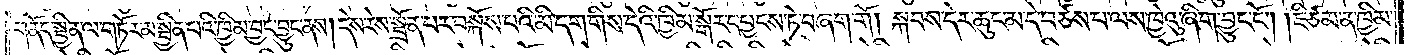གནོད་སྦྱིན་ལ་གཏོར་མ་སྦྱིན་པའི་ཁྱིམ་བྱང་བྱུང་ནས། དེས་རེས་སྦྲོན་པར་བསྐོས་པའི་མི་དག་གིས་དེའི་ཁྱིམ་སྒོར་དབྱངས་ཏེ་བཞག་གོ །སྐབས་དེར་ཆུང་མ་དེ་བཙས་པ་ལས་ཁྱེའུ་ཞིག་བྱུང་ངོ༌། །ཇི་ཙམ་ན་ཁྱིམ་
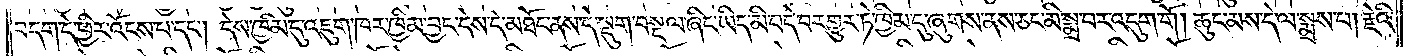བདག་དེ་ཕྱིར་འོངས་པ་དང༌། དེས་ཁྱིམ་དུ་འཇུག་ཁར་ཁྱིམ་བྱང་དེས་དེ་མཐོང་ནས་དེ་སྡུག་བསྔལ་ཞིང་ཡིད་མི་བདེ་བར་གྱུར་ཏེ་ཁྱིམ་དུ་ཞུགས་ནས་ཅང་མི་སྨྲ་བར་འདུག་གོ །ཆུང་མས་དེ་ལ་སྨྲས་པ། རྗེའི་
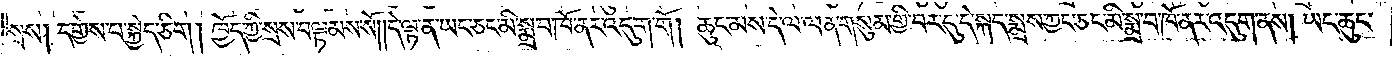སྲས། དགྱེས་པ་སྐྱེད་ཅིག །ཁྱོད་ཀྱི་སྲས་བལྟམས་སོ། །དེ་ལྟ་ན་ཡང་ཅང་མི་སྨྲ་བ་ཁོ་ནར་འདུག་གོ །ཆུང་མས་དེ་ལ་ལན་གསུམ་གྱི་བར་དུ་དེ་སྐད་སྨྲས་ཀྱང་ཅང་མི་སྨྲ་བ་ཁོ་ནར་འདུག་ནས། ཡང་ཆུང་
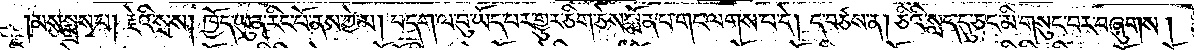།མས་སྨྲས་པ། རྗེའི་སྲས། ཁྱོད་ཡུན་རིང་པོ་ནས་ཀྱེ་མ། བདག་ལ་བུ་ཡོད་པར་གྱུར་ཅིག་ཅེས་སྨོན་པ་གང་ལགས་པ་དེ། ད་བཙས་ན། ཅིའི་སླད་དུ་ཅང་མི་གསུང་བར་བཞུགས།
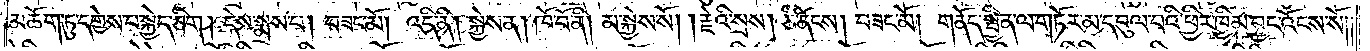མཆོག་ཏུ་དགྱེས་པ་སྐྱེད་ཅིག །དེས་སྨྲས་པ། བཟང་མོ། འདི་ནི། སྐྱེས་ན། ཁོ་བོ་ནི། མ་སྐྱེས་སོ། །རྗེའི་སྲས། ཅི་ནོངས། བཟང་མོ། གནོད་སྦྱིན་ལ་གཏོར་མ་དབུལ་བའི་ཕྱིར་ཁྱིམ་བྱང་འོངས་སོ། །
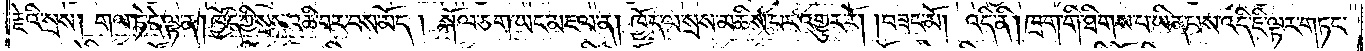རྗེའི་སྲས། གལ་ཏེ་དེ་ལྟ་ན། ཁྱོད་ཀྱི་སྲས་འཆི་བར་བས་མོད། སྐོལ་ཅག་ཡང་མཇལ་ན། ཁྱོད་ལ་སྲས་མཆིས་པར་འགྱུར་རོ། །བཟང་མོ། འདི་ནི། ཁྲག་གི་ཐིགས་པ་ཡིན་པས་འདི་ཇི་ལྟར་གཏང་
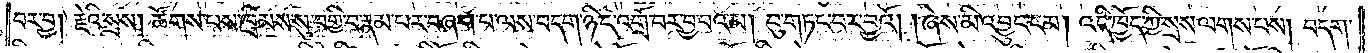བར་བྱ། རྗེའི་སྲས། ཚོགས་པས་ཁྲིམས་སུ་བགྱི་བ་རྣམ་པར་བཞག་པ་ལས་བདག་ཉིད་འགྲོ་བར་བྱ་བའམ། བུ་གཏང་བར་བྱའོ། །ཞེས་མི་འབྱུང་ངམ། འདི་ཁྱོད་ཀྱི་སྲས་ལགས་པས། བདག་
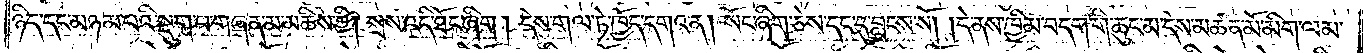ཉིད་དང་མཉམ་པའི་སྡུག་པ་གཞན་མ་མཆིས་ཀྱི། སྲས་འདི་ཐོང་ཞིག །དེས་གལ་ཏེ་ཁྱོད་དགའ་ན། སོང་ཞིག་ཅེས་དང་དུ་བླངས་སོ། །དེ་ནས་ཁྱིམ་བདག་གི་ཆུང་མ་དེས་མཚན་མོ་མིག་ལམ་
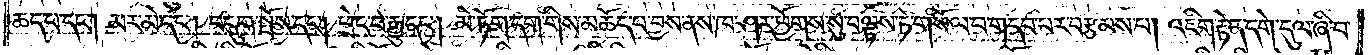ཆད་པ་དང༌། མར་མེ་དང༌། བདུག་སྤོས་དང༌། ཕྲེང་བ་རྒྱུ་དང༌། མེ་ཏོག་དག་གིས་མཆོད་པ་བྱས་ནས་ཁ་ཤར་ཕྱོགས་སུ་བལྟས་ཏེ་གསོལ་བ་གདབ་པར་བརྩམས་པ། འཇིག་རྟེན་དགེ་དུལ་ཞི་བ་
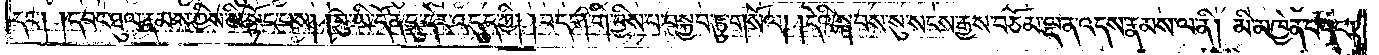དང༌། །དབང་ཐུལ་རྣམས་ཀྱིས་མི་སྟོང་པས། །བུ་ཡི་དོན་དུ་དེར་འདུད་ཀྱི། །བདག་གི་བྱིས་པ་བསྐྱབ་ཏུ་གསོལ། །དེའི་སྐབས་སུ་སངས་རྒྱས་བཅོམ་ལྡན་འདས་རྣམས་ལ་ནི། མི་མཁྱེན་པ་དང༌།
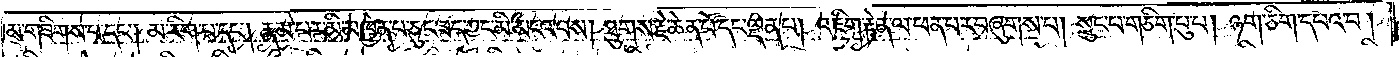མ་གཟིགས་པ་དང༌། མ་རིག་པ་དང༌། རྣམ་པར་མི་མཁྱེན་པ་ཅུང་ཟད་ཀྱང་མི་མངའ་བས། ཐུགས་རྗེ་ཆེན་པོ་དང་ལྡན་པ། འཇིག་རྟེན་ལ་ཕན་པར་བཞུགས་པ། སྲུང་པ་གཅིག་པུ་པ། ཉག་ཅིག་དཔའ་བ།
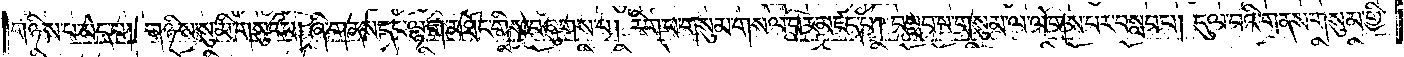གཉིས་པ་མེད་པ། གཉིས་སུ་མི་གསུང་པ། ཞི་གནས་དང་ལྷག་མཐོང་གིས་བཞུགས་པ། རིག་པ་གསུམ་གསལ་བར་མཛད་པ། བསླབ་པ་གསུམ་ལ་ལེགས་པར་བསླབ་པ། དུལ་བའི་གནས་གསུམ་གྱི་
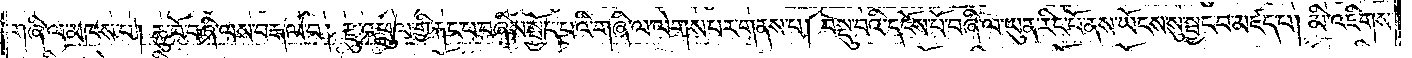གཞི་ལ་མཁས་པ། ཆུ་བོ་བཞི་ལས་བརྒལ་བ། རྫུ་འཕྲུལ་གྱི་རྐང་པ་བཞིས་སྤྱོད་པའི་གཞི་ལ་ལེགས་པར་གནས་པ། བསུ་བའི་དངོས་པོ་བཞི་ལ་ཡུན་རིང་པོ་ནས་ཡོངས་སུ་སྦྱང་བ་མཛད་པ། མི་འཇིགས་
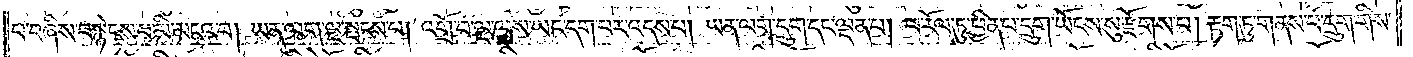པ་བཞིས་བསྙེངས་པ་མི་མངའ་བ། ཡན་ལག་ལྔ་སྤངས་པ། འགྲོ་བ་ལྔ་ལས་ཡང་དག་པར་འདས་པ། ཡན་ལག་དྲུག་དང་ལྡན་པ། ཕ་རོལ་ཏུ་ཕྱིན་པ་དྲུག་ཡོངས་སུ་རྫོགས་པ། རྟག་ཏུ་གནས་པ་དྲུག་གིས་
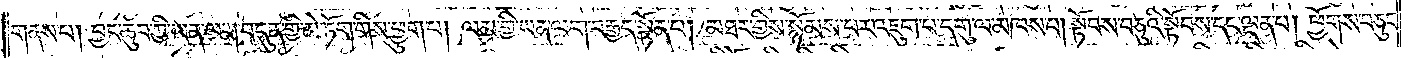གནས་པ། བྱང་ཆུབ་ཀྱི་ཡན་ལག་བདུན་གྱི་མེ་ཏོག་གིས་ཕྱུག་པ། ལམ་གྱི་ཡན་ལག་བརྒྱད་སྟོན་པ། མཐར་གྱིས་སྙོམས་པར་འཇུག་པ་དགུ་ལ་མཁས་པ། སྟོབས་བཅུའི་སྟོབས་དང་ལྡན་པ། ཕྱོགས་བཅུར་
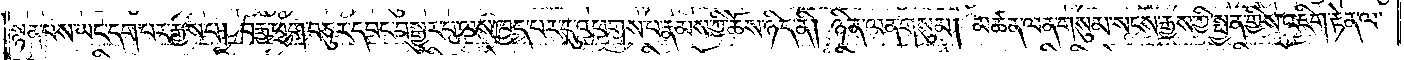སྙན་པས་ཡང་དག་པར་རྒྱས་པ། བརྒྱ་ཕྲག་བཅུར་དབང་བསྒྱུར་བ་ལས་ཁྱད་པར་དུ་འཕགས་པ་རྣམས་ཀྱི་ཆོས་ཉིད་ནི། ཉིན་ལན་གསུམ། མཚན་ལན་གསུམ་སངས་རྒྱས་ཀྱི་སྤྱན་གྱིས་འཇིག་རྟེན་ལ་
